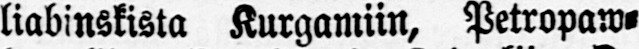liabinskista Kurgamiin, Petropaw-
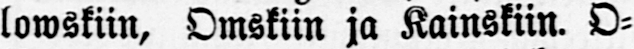lowskiin, Omskiin ja Kainskiin. O-
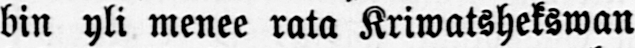bin yli menee rata Kriwatshekswan
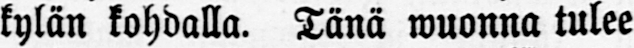kylän kohdalla. Tänä wuonna tulee
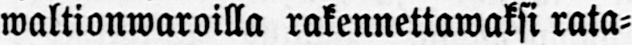waltionwaroilla rakennettawaksi rata-
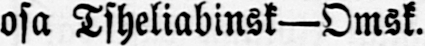osa Tsheliabinsk —Omsk.
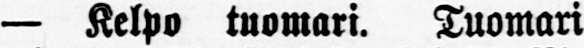— Kelpo tuomari. Tuomari
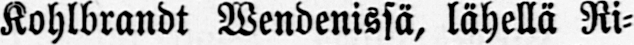Kohlbrandt Wendenissä, lähellä Ri-
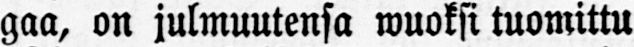gaa, on julmuutensa wuoksi tuomittu
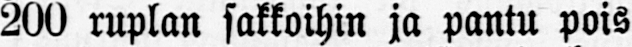200 ruplan sakkoihin ja pantu pois
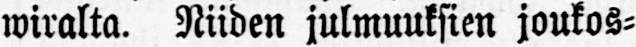wiralta. Niiden julmuuksien joukos-
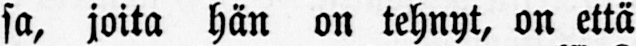sa, joita hän on tehnyt, on että
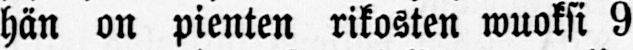hän on pienten rikosten wuoksi 9
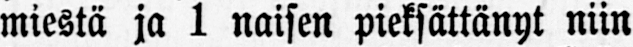miestä ja 1 naisen pieksättänyt niin
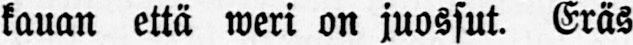kauan että weri on juossut. Eräs
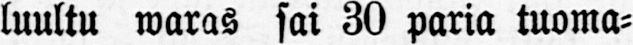luultu waras sai 30 paria tuoma-
